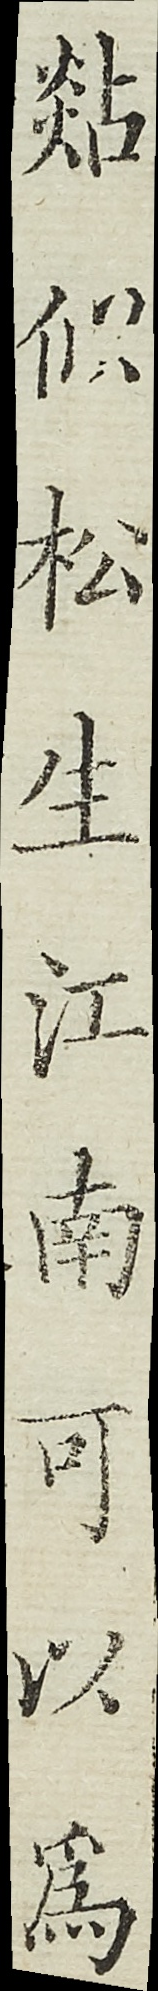煔似松生江南可以為
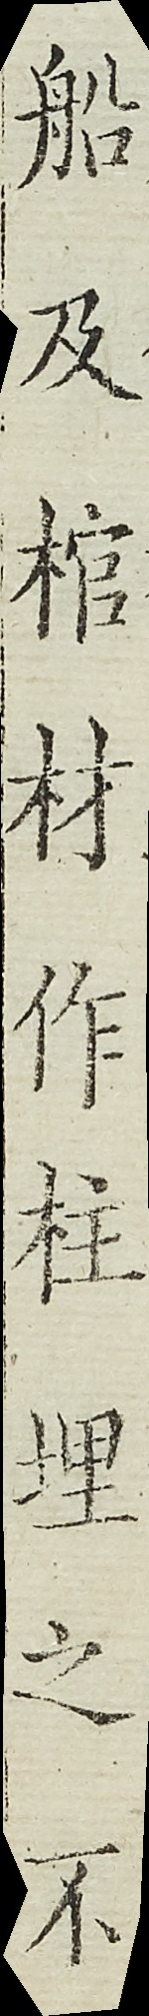船及棺材作柱埋之不
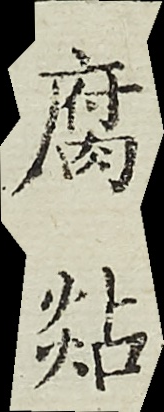腐煔
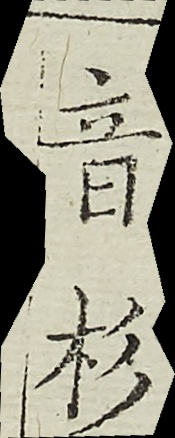音杉
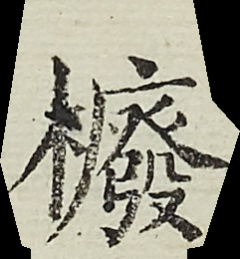櫠
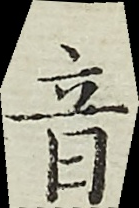音
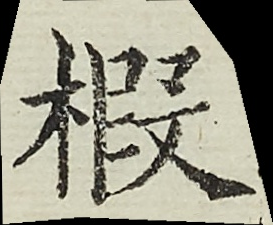椵
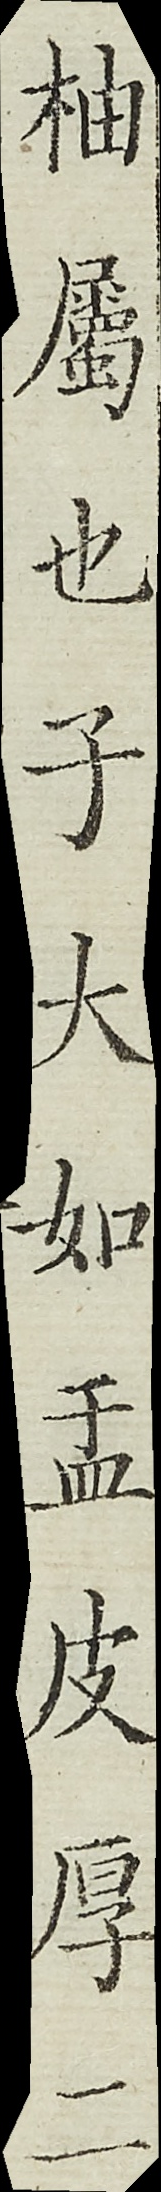柚屬也子大如盂皮厚二
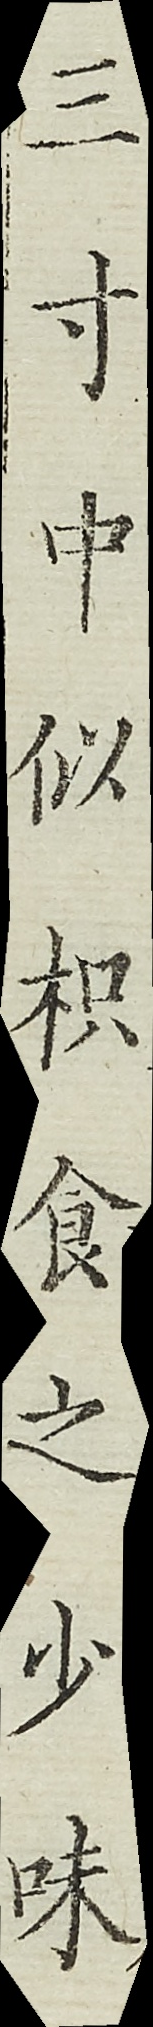三寸中似枳食之少味
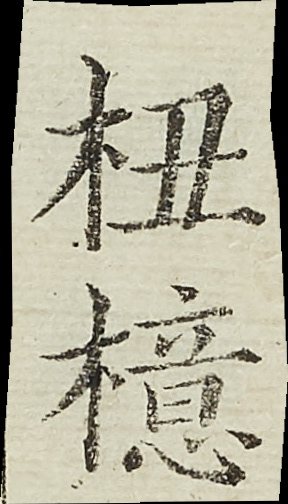杻檍
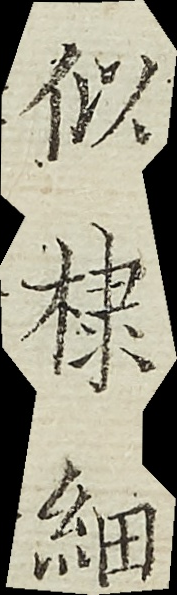似棣細
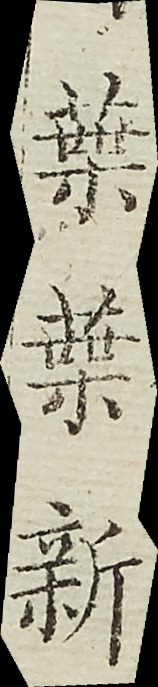葉葉新
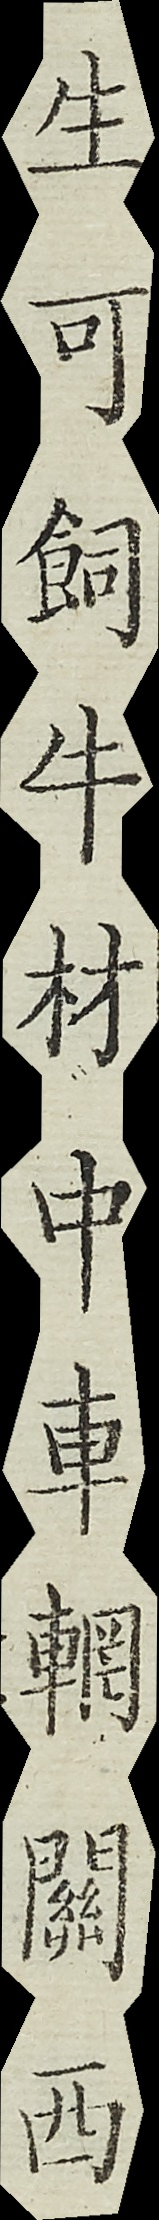生可飼牛材中車輞關西
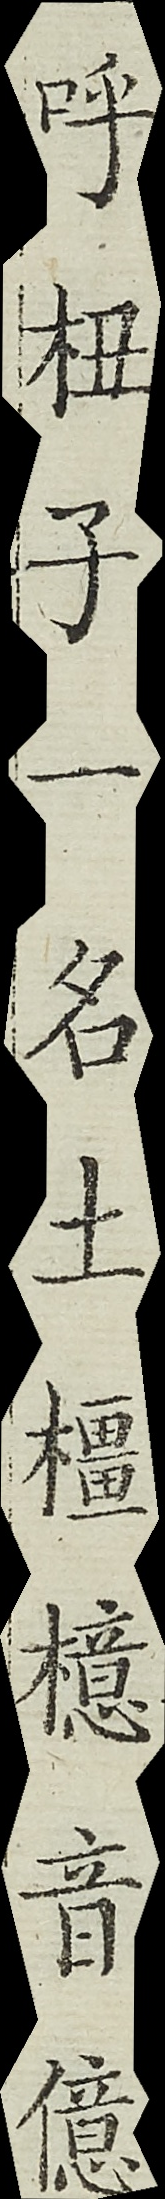呼杻子一名土橿檍音億
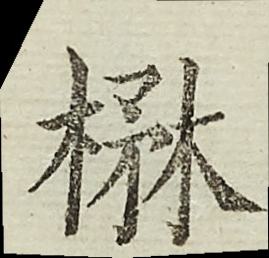楙
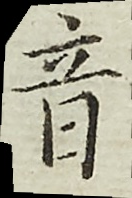音
